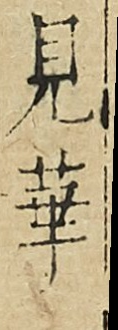見華
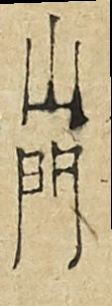山門
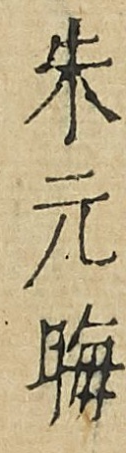朱元晦
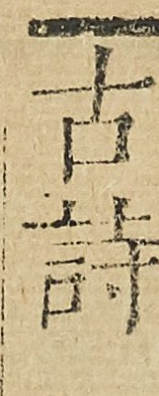古詩
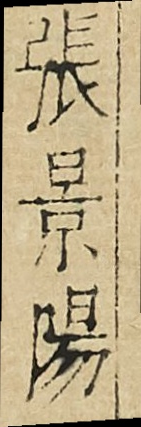張景陽
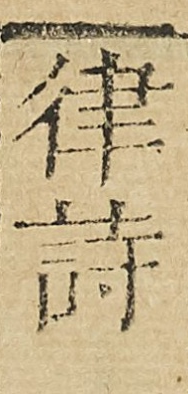律詩
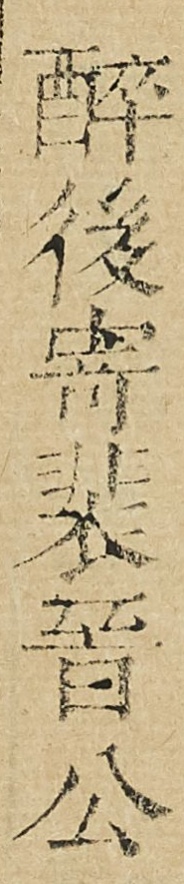醉後寄裴晉公
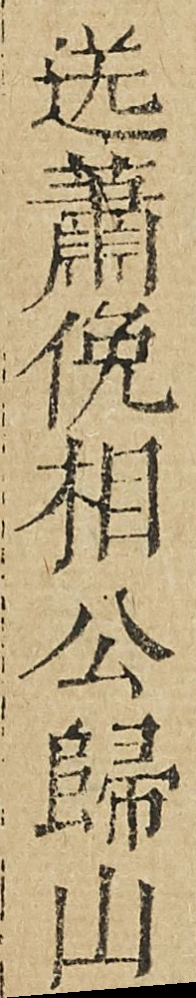送蕭俛相公歸山
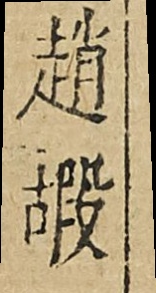趙嘏
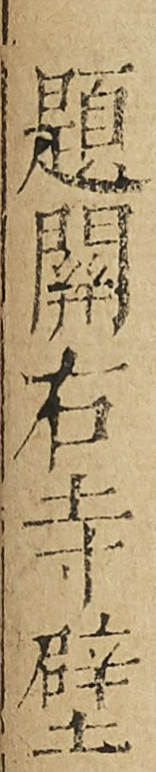題關右寺壁
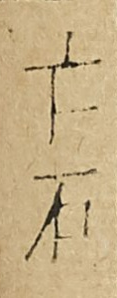亡石
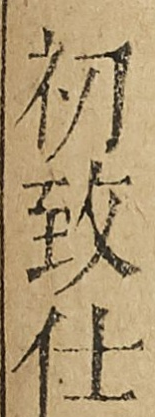初致仕
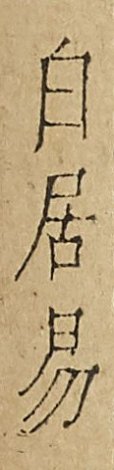白居易
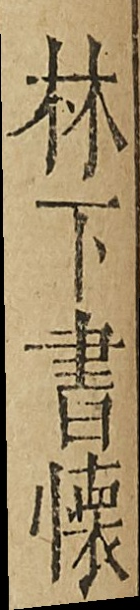林下書懐
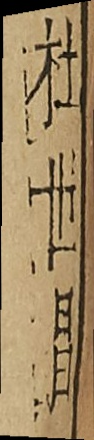杜世昌
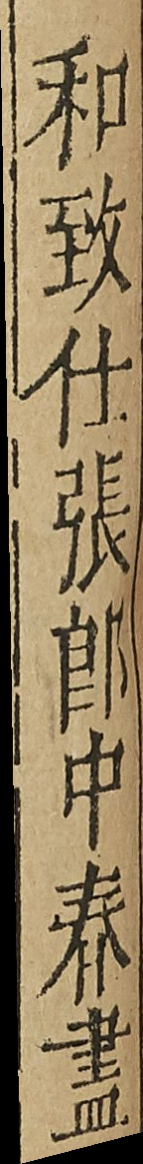和致仕張郎中春盡
